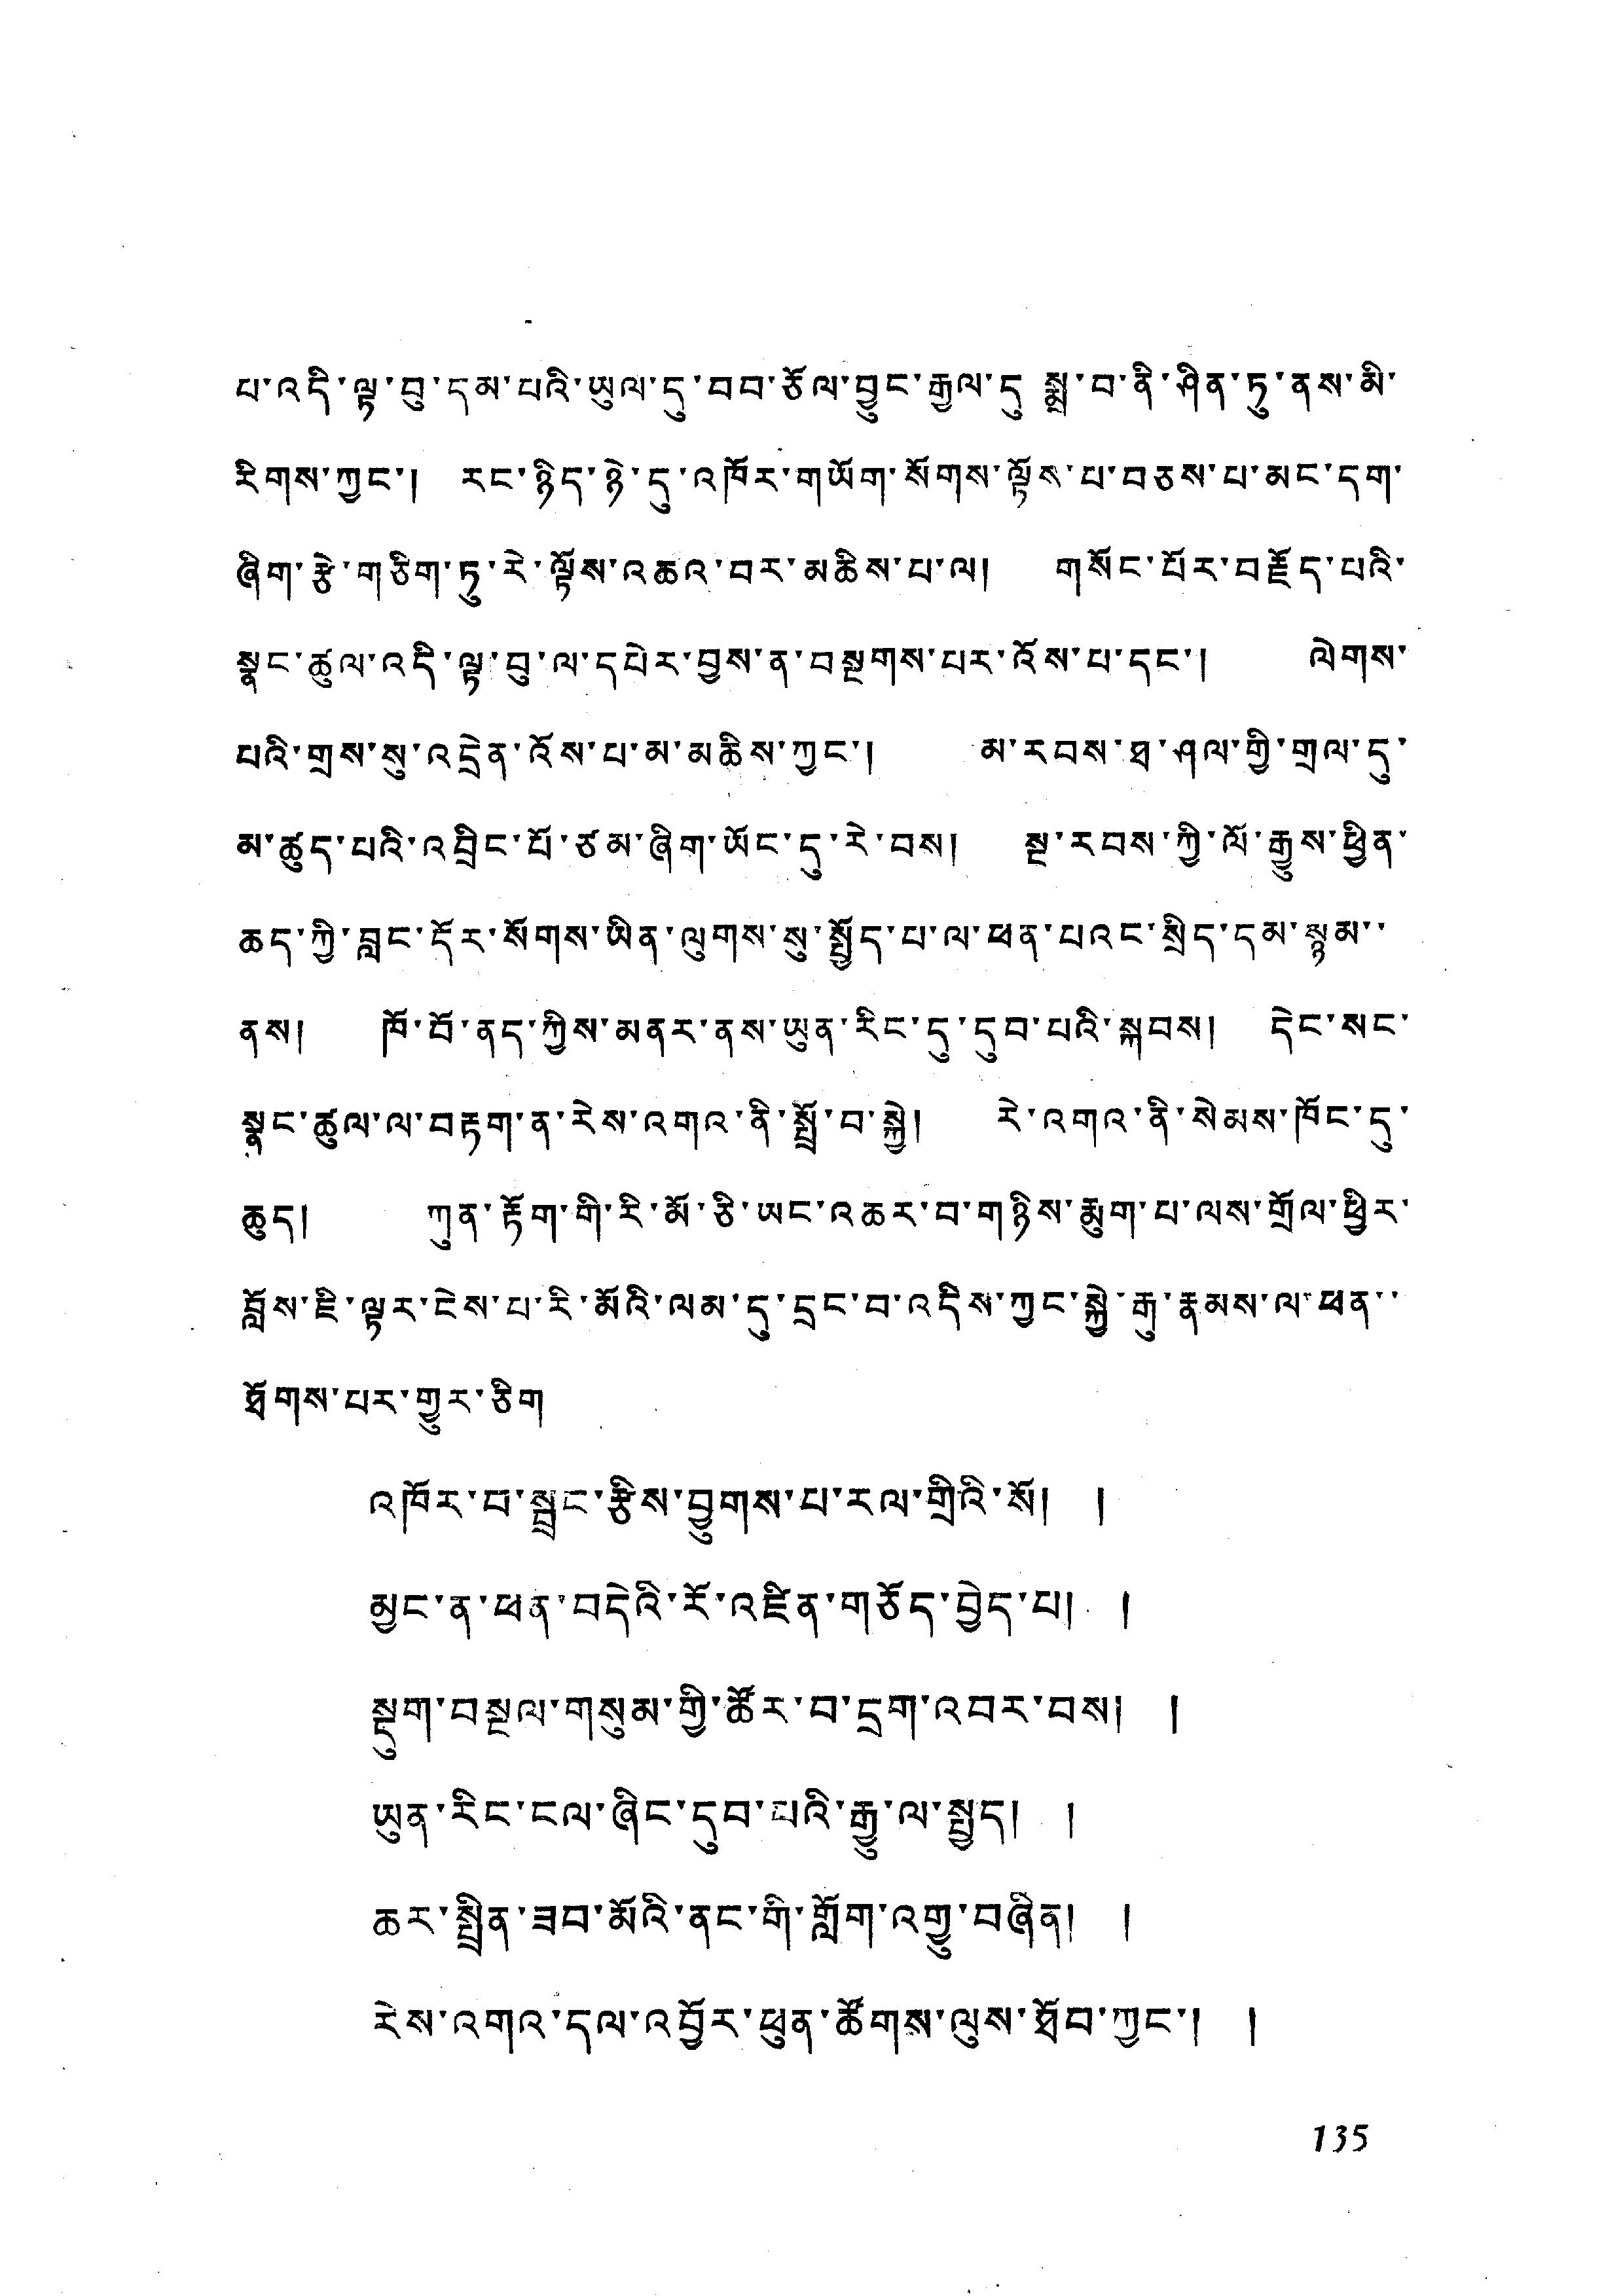ལ་འདི་ལྟ་བུ་དམ་པའི་ཡུལ་དུ་བབ་ཅོལ་བྱུང་རྒྱལ་དུ་སྨྲ་བ་ནི་ཤིན་ཏུ་ནས་མི་
རིགས་ཀྱང་། རང་ཉིད་ཉེ་དུ་འཁོར་གཡོག་སོགས་ལྟོས་པ་བཅས་པ་མང་དག་
ཞིག་རྩེ་གཅིག་ཏུ་རེ་ལྟོས་འཆའ་བར་མཆིས་པ་ལ། གསོང་པོར་བརྗོད་པའི་
སྣང་ཚུལ་འདི་ལྟ་བུ་ལ་དཔེར་བྱས་ན་བསྔགས་པར་འོས་པ་དང་། ལེགས་
པའི་གྲས་སུ་འདྲེན་འོས་པ་མ་མཆིས་ཀྱང་། མ་རབས་ཐ་ཤལ་གྱི་གྲལ་དུ་
མ་ཚུད་པའི་འབྲིང་པོ་ཙམ་ཞིག་ཡོང་དུ་རེ་བས། སྔ་རབས་ཀྱི་ལོ་རྒྱུས་ཕྱིན་
ཆད་ཀྱི་བླང་དོར་སོགས་ཡིན་ལུགས་སུ་སྤྱོད་པ་ལ་ཕན་པའང་སྲིད་དམ་སྙམ་་
ནས། ཁོ་བོ་ནད་ཀྱིས་མནར་ནས་ཡུན་རིང་དུ་དུབ་པའི་སྐབས། དེང་སང་
སྣང་ཚུལ་ལ་བརྟག་ན་རེས་འགའ་ནི་སྤྲོ་བ་སྐྱེ། རེ་འགའ་ནི་སེམས་ཁོང་དུ་
ཆུད། ཀུན་རྟོག་གི་རི་མོ་ཅི་ཡང་འཆར་བ་གཉིས་རྨུག་པ་ལས་གྲོལ་ཕྱིར་
བློས་ཇི་ལྟར་ངེས་པ་རི་མོའི་ལམ་དུ་དྲང་བ་འདིས་ཀྱང་སྐྱེ་རྒུ་རྣམས་ལ་ཕན་་
ཐོགས་པར་གྱུར་ཅིག
འཁོར་བ་སྦྲང་རྩིས་བྱུགས་པ་རལ་གྲིའི་སོ། །
མྱང་ན་ཕན་བདེའི་རོ་འཛིན་གཅོད་བྱེད་པ། །
སྡུག་བསྔལ་གསུམ་གྱི་ཚོར་བ་དྲག་འབར་བས། །
ཡུན་རིང་ངལ་ཞིང་དབ་པའི་རྒྱུ་ལ་སྤྱད། །
ཆར་སྤྲིན་ཟབ་མོའི་ནང་གི་ཀློག་འགྱུ་བཞིན། །
རེས་འགའ་དལ་འབྱོར་ཕུན་ཚོགས་ལུས་ཐོབ་ཀྱང་། །
135
